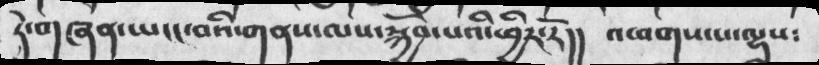ཏེ་གཞན་ཡངང་བའི་གནས་ལས་སྐྱོབ་པའི་ཕྱིར་རོ།།    འཕགས་པ་ལྷས༴
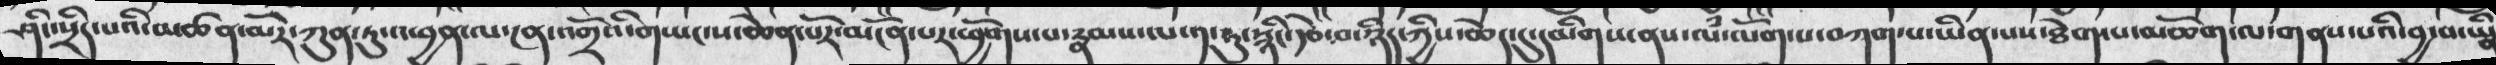ཤིང་སྲིད་པའི་མཚན་མོར་ཀུན་ཏུ་འཕྱན་ལ་ངན་འགྲོའི་གཡང་ས་ཆེན་པོར་མངོན་པར་ཕྱོགས་པ་རྣམས་ལ་༡་ཏུ་སྙིང་རྩེ་བ་ཉིད་ཀྱིས་ཆེད་དུ་དམིགས་ནས་ལཾ་ལོག་པ་བཀག་པ་ཡིན་པས་ཐེག་པ་མཆོག་ལ་གནས་པའི་བྱ་བ་ཡིས
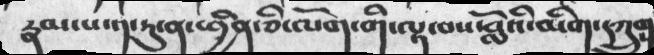རྣམ་པ་༡་ཏུ་ན་ཕྱིན་ཅི་ལོག་གི་ལྟ་བས་བློའི་མིག་དཀྲུག
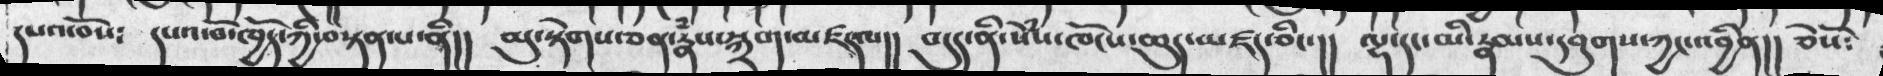དཔའ་བོས༴   དཔའ་བོ་ཁྱོད་ཀྱི་བསྟན་པ་ནི།།  མུ་སྟེགས་ཅན་རྣཾས་སྐྲག་མཛད་པ།།   བདུད་ནི་སེྃས་ཁོངས་ཆུད་མཛད་ཅིང་།།  ལྷ་དང་མི་རྣམས་དབུགས་ཀྱང་འབྱིན།།  ཅེསོ༴
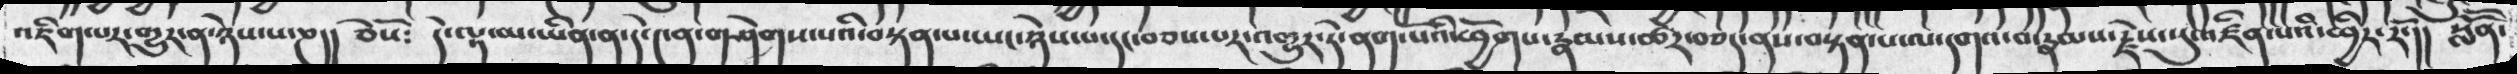འཇིག་པར་གྱུར་ན་ཉེས་པ་ཎ།།  ཅེསོ༴  དེ་ལྟར་མ་ཡིན་ན་དེ་༤ན་གཤེགས་པའི་བསྟན་པ་ཡང་ཉེས་པ་དང་བཅས་པར་འགྱུར་དེ་ནག་པོའི་ཕྱོགས་རྣམས་ཚེར་བཅད་ནས་བསྟན་པ་ལ་དགའ་བ་རྣམས་རྗེས་སུ་འཛིན་པའི་ཕྱིར་རོ་།། སློོན་
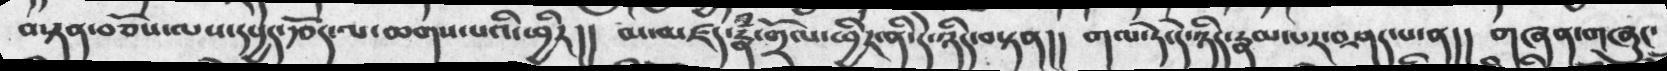བསྟན་བཅོས་ལས་དཔྱད་རྩོད་ལ་ཆགས་པའི་ཕྱིར།།   མ་མཛད་རྣཾ་གྲོལ་ཕྱིར་ནི་དེ་ཉིད་བསྟན།།  གལ་ཏེ་དེ་ཉིད་རྣམ་པར་བཤད་པ་ན།།   གཞན་གཞུང་
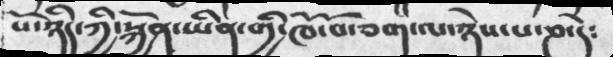པོ་ཉིད་ཀྱི་སྐྱོན་ཡིན་གྱི་ཁོ་བོ་ཅག་ལ་ཉེས་པ་ཎ་དེ༴
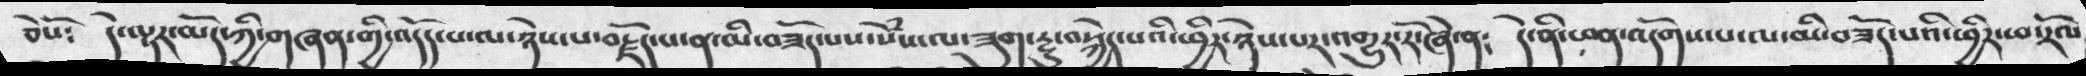ཅེསོ༴   དེ་ལྟར་མོད་ཀྱི་གཞན་གྱི་འདོད་པ་ལ་ཉེས་པ་བརྗོད་པ་ན་མི་བཟོད་པས་སེྃས་ལ་ཟུག་རྱུ་བསྐྱེད་པའི་ཕྱིར་ཉེས་པར་འགྱུར་རོ་ཞེ་ན༴  དེ་ནི་ཕན་འདོགས་པ་ལ་མི་བཟོད་པའི་ཕྱིར་ཕ་རོལ
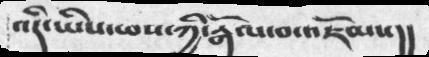འདི་ཡིས་ཕ་ཀྱི་རྒོལ་བ་འཇོམས།།
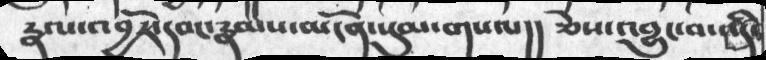རྣལ་འབྱོར་དབང་རྣམས་མངོན་སུམ་གསལ།།  ཅེས་འབྱུང་བ་འདི་
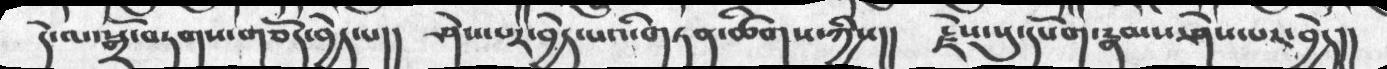དེ་ལ་སྒྲོ་བཏགས་གཅོད་བྱེད་པ།།   ཤེས་པར་བྱེད་པའི་གཏན་ཚིགས་ཀྱིས།།  རྗེས་སུ་དཔོག་རྣམས་ཤེས་པར་བྱེད།།
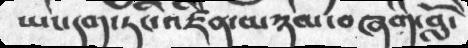ཡང་དག་ཏིང་འཛིན་མཉམ་བཞག་བློ་
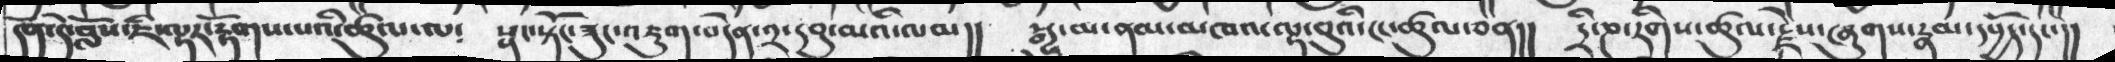དོན་དེ་བློས་ཇི་ལྟར་རྟོགས་པའི་ཚུལ་ལ༴  སྣང་སྟོང་ཟུང་འཇུག་བདེན་༢་དབུ་མའི་ལམ།།   སྒྱུ་མ་ནམ་མཁའ་ལྟ་བུའི་ངང་ཚུལ་ཅན།།   དྲི་ཎ་རིགས་ཚུལ་རྗེས་ཞུགས་རྣམ་དཔྱོད་དང་།།
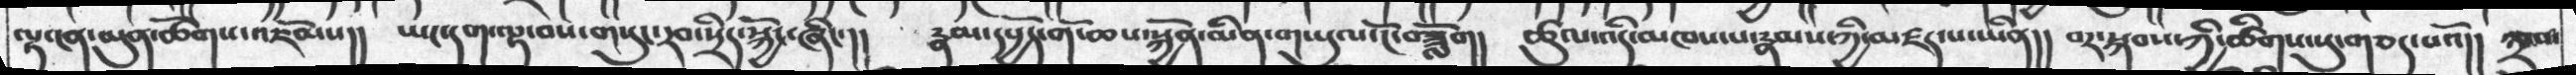ལྟ་ངན་མུན་ཚོགས་འཇོམས།།   ཡང་དག་ལྟ་བས་གསུང་རབ་སྲིད་སྐྱོང་ཞིང་།།  རྣམ་དཔྱོད་གོ་ཆས་སྐྱོན་མིན་གཡུལ་ངོ་བཟློག།  ཚུལ་འདི་མཁས་པ་རྣམས་ཀྱི་མཛད་པ་ཡིན།།   བར་སྐབས་ཀྱི་ཚིགས་སུ་གཅད་པའོ།།  ༣་པ་
